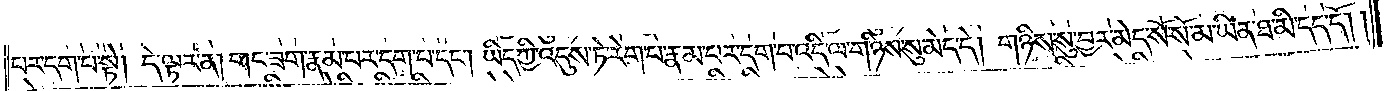པར་དག་པ་སྟེ། དེ་ལྟར་ན། གང་ཟག་རྣམ་པར་དག་པ་དང༌། ཡིད་ཀྱི་འདུས་ཏེ་རེག་པ་རྣམ་པར་དག་པ་འདི་ལ་གཉིས་སུ་མེད་དེ། གཉིས་སུ་བྱར་མེད་སོ་སོ་མ་ཡིན་ཐ་མི་དད་དོ། །
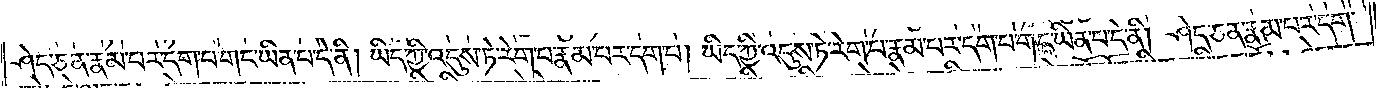ཤེད་ཅན་རྣམ་པར་དག་པ་གང་ཡིན་པ་དེ་ནི། ཡིད་ཀྱི་འདུས་ཏེ་རེག་པ་རྣམ་པར་དག་པ། ཡིད་ཀྱི་འདུས་ཏེ་རེག་པ་རྣམ་པར་དག་པ་གང་ཡིན་པ་དེ་ནི། ཤེད་ཅན་རྣམ་པར་དག་
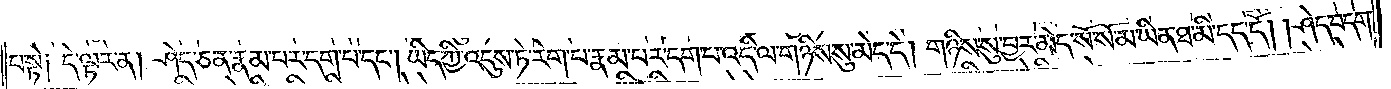པ་སྟེ༑ དེ་ལྟར་ན། ཤེད་ཅན་རྣམ་པར་དག་པ་དང༌། ཡིད་ཀྱི་འདུས་ཏེ་རེག་པ་རྣམ་པར་དག་པ་འདི་ལ་གཉིས་སུ་མེད་དེ། གཉིས་སུ་བྱར་མེད་སོ་སོ་མ་ཡིན་ཐ་མི་དད་དོ། །ཤེད་བདག་
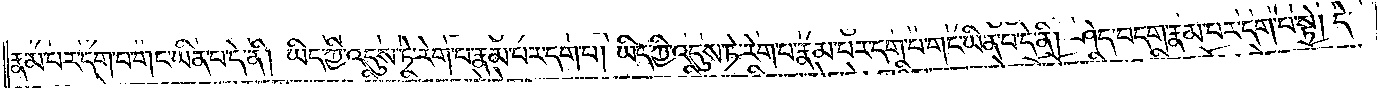རྣམ་པར་དག་པ་གང་ཡིན་པ་དེ་ནི། ཡིད་ཀྱི་འདུས་ཏེ་རེག་པ་རྣམ་པར་དག་པ། ཡིད་ཀྱི་འདུས་ཏེ་རེག་པ་རྣམ་པར་དག་པ་གང་ཡིན་པ་དེ་ནི། ཤེད་བདག་རྣམ་པར་དག་པ་སྟེ། དེ་
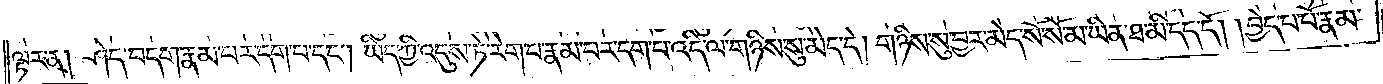ལྟར་ན། ཤེད་བདག་རྣམ་པར་དག་པ་དང༌། ཡིད་ཀྱི་འདུས་ཏེ་རེག་པ་རྣམ་པར་དག་པ་འདི་ལ་གཉིས་སུ་མེད་དེ། གཉིས་སུ་བྱར་མེད་སོ་སོ་མ་ཡིན་ཐ་མི་དད་དོ། །བྱེད་པ་པོ་རྣམ་
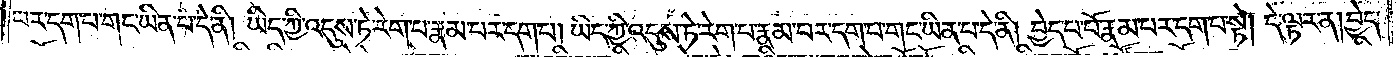པར་དག་པ་གང་ཡིན་པ་དེ་ནི། ཡིད་ཀྱི་འདུས་ཏེ་རེག་པ་རྣམ་པར་དག་པ། ཡིད་ཀྱི་འདུས་ཏེ་རེག་པ་རྣམ་པར་དག་པ་གང་ཡིན་པ་དེ་ནི། བྱེད་པ་པོ་རྣམ་པར་དག་པ་སྟེ། དེ་ལྟར་ན། བྱེད་
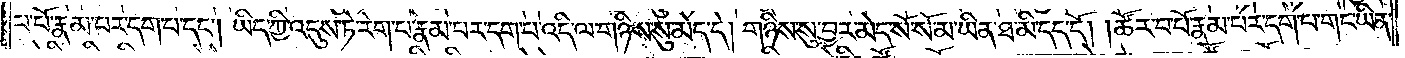པ་པོ་རྣམ་པར་དག་པ་དང༌། ཡིད་ཀྱི་འདུས་ཏེ་རེག་པ་རྣམ་པར་དག་པ་འདི་ལ་གཉིས་སུ་མེད་དེ། གཉིས་སུ་བྱར་མེད་སོ་སོ་མ་ཡིན་ཐ་མི་དད་དོ། །ཚོར་བ་པོ་རྣམ་པར་དག་པ་གང་ཡིན་
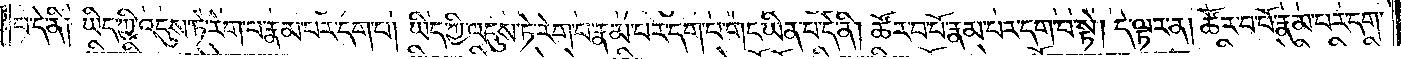པ་དེ་ནི༑ ཡིད་ཀྱི་འདུས་ཏེ་རེག་པ་རྣམ་པར་དག་པ། ཡིད་ཀྱི་འདུས་ཏེ་རེག་པ་རྣམ་པར་དག་པ་གང་ཡིན་པ་དེ་ནི། ཚོར་བ་པོ་རྣམ་པར་དག་པ་སྟེ། དེ་ལྟར་ན། ཚོར་བ་པོ་རྣམ་པར་དག་
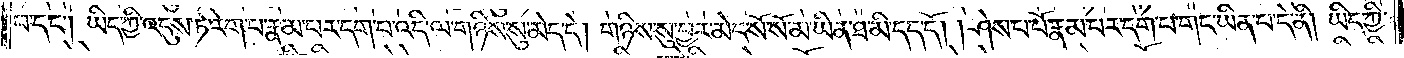པ་དང༌། ཡིད་ཀྱི་འདུས་ཏེ་རེག་པ་རྣམ་པར་དག་པ་འདི་ལ་གཉིས་སུ་མེད་དེ། གཉིས་སུ་བྱར་མེད་སོ་སོ་མ་ཡིན་ཐ་མི་དད་དོ། །ཤེས་པ་པོ་རྣམ་པར་དག་པ་གང་ཡིན་པ་དེ་ནི། ཡིད་ཀྱི་
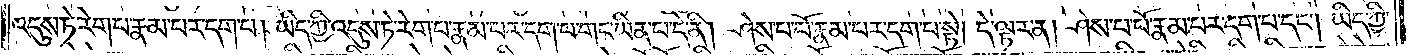འདུས་ཏེ་རེག་པ་རྣམ་པར་དག་པ། ཡིད་ཀྱི་འདུས་ཏེ་རེག་པ་རྣམ་པར་དག་པ་གང་ཡིན་པ་དེ་ནི། ཤེས་པ་པོ་རྣམ་པར་དག་པ་སྟེ། དེ་ལྟར་ན། ཤེས་པ་པོ་རྣམ་པར་དག་པ་དང༌། ཡིད་ཀྱི་
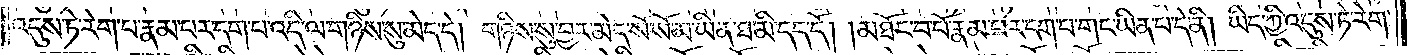འདུས་ཏེ་རེག་པ་རྣམ་པར་དག་པ་འདི་ལ་གཉིས་སུ་མེད་དེ། གཉིས་སུ་བྱར་མེད་སོ་སོ་མ་ཡིན་ཐ་མི་དད་དོ། །མཐོང་བ་པོ་རྣམ་པར་དག་པ་གང་ཡིན་པ་དེ་ནི། ཡིད་ཀྱི་འདུས་ཏེ་རེག་
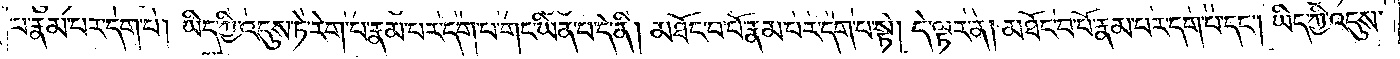པ་རྣམ་པར་དག་པ། ཡིད་ཀྱི་འདུས་ཏེ་རེག་པ་རྣམ་པར་དག་པ་གང་ཡིན་པ་དེ་ནི། མཐོང་བ་པོ་རྣམ་པར་དག་པ་སྟེ། དེ་ལྟར་ན། མཐོང་བ་པོ་རྣམ་པར་དག་པ་དང༌། ཡིད་ཀྱི་འདུས་
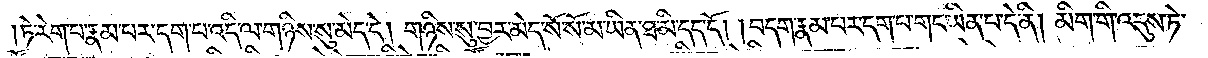ཏེ་རེག་པ་རྣམ་པར་དག་པ་འདི་ལ་གཉིས་སུ་མེད་དེ། གཉིས་སུ་བྱར་མེད་སོ་སོ་མ་ཡིན་ཐ་མི་དད་དོ། །བདག་རྣམ་པར་དག་པ་གང་ཡིན་པ་དེ་ནི། མིག་གི་འདུས་ཏེ་
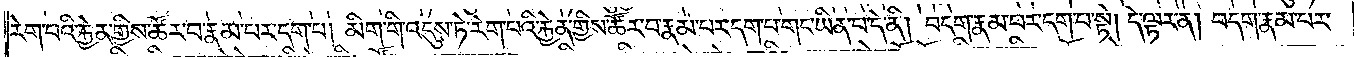རེག་པའི་རྐྱེན་གྱིས་ཚོར་བ་རྣམ་པར་དག་པ། མིག་གི་འདུས་ཏེ་རེག་པའི་རྐྱེན་གྱིས་ཚོར་བ་རྣམ་པར་དག་པ་གང་ཡིན་པ་དེ་ནི། བདག་རྣམ་པར་དག་པ་སྟེ། དེ་ལྟར་ན། བདག་རྣམ་པར་
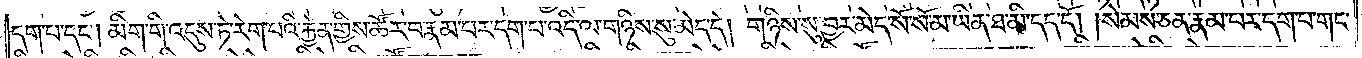དག་པ་དང༌། མིག་གི་འདུས་ཏེ་རེག་པའི་རྐྱེན་གྱིས་ཚོར་བ་རྣམ་པར་དག་པ་འདི་ལ་གཉིས་སུ་མེད་དེ། གཉིས་སུ་བྱར་མེད་སོ་སོ་མ་ཡིན་ཐ་མི་དད་དོ། །སེམས་ཅན་རྣམ་པར་དག་པ་གང་
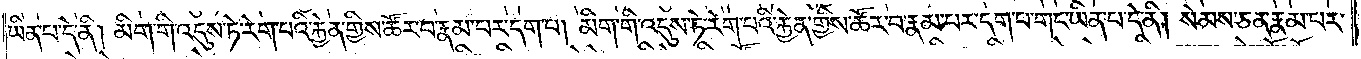ཡིན་པ་དེ་ནི། མིག་གི་འདུས་ཏེ་རེག་པའི་རྐྱེན་གྱིས་ཚོར་བ་རྣམ་པར་དག་པ། མིག་གི་འདུས་ཏེ་རེག་པའི་རྐྱེན་གྱིས་ཚོར་བ་རྣམ་པར་དག་པ་གང་ཡིན་པ་དེ་ནི། སེམས་ཅན་རྣམ་པར་
